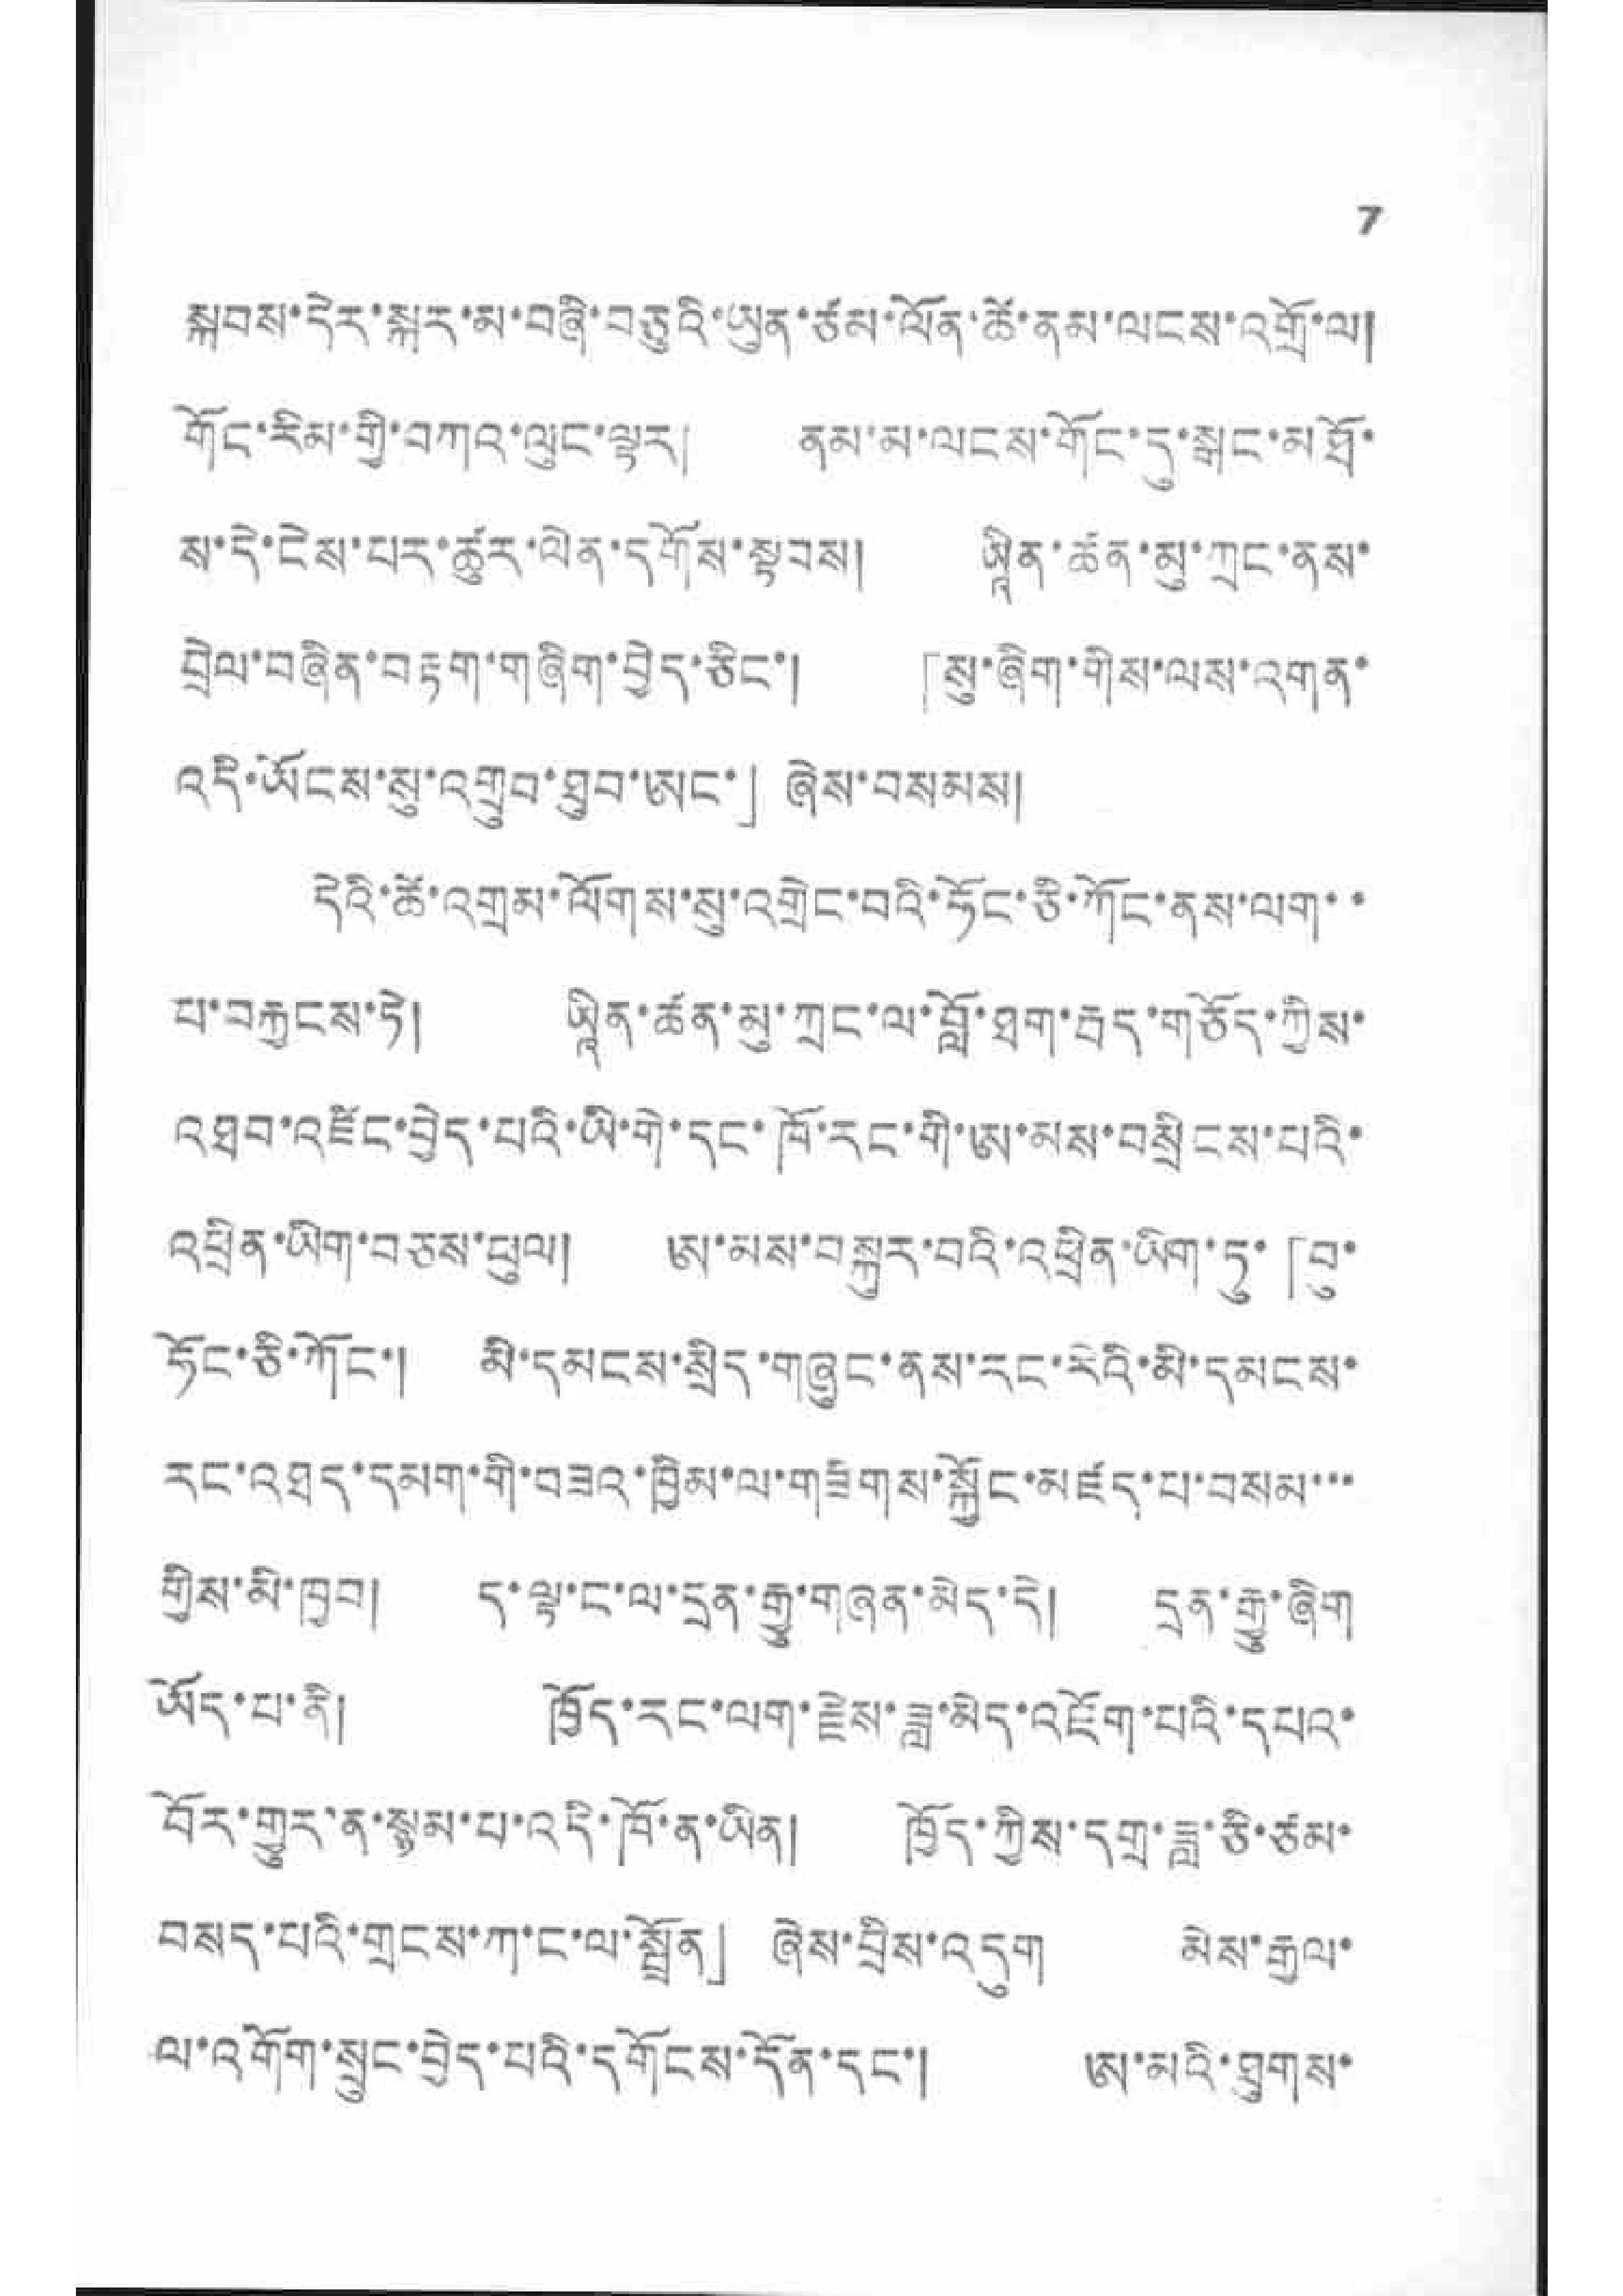7
སྐབས་དེར་སྐར་མ་བཞི་བཅུའི་ཡུན་ཙམ་ལོན་ཚེ་ནམ་ལངས་འགྲོ་ལ།
གོང་རིམ་གྱི་བཀའ་ལུང་ལྟར། ནམ་མ་ལངས་གོང་དུ་སྒང་མཐོ་
ས་དེ་ངེས་པར་ཚུར་ལེན་དགོས་སྟབས། ཡཱིན་ཚན་མུ་གྲང་ནས་
བྲེལ་བཞིན་བརྟག་གཞིག་བྱེད་ཅིང་། 「སུ་ཞིག་གེས་ལས་འགན་
འདི་ཡོངས་སུ་འགྲུབ་ཐུབ་ཨང་」ཞེས་བསམས།
དེའི་ཚེ་འགྲམ་ལོགས་སུ་འགྲེང་བའི་ཧོང་ཅི་ཀོང་ནས་ལག་་
པ་བརྐྱངས་ཏེ། ཡཱིན་ཚན་མུ་ཀྲང་ལ་བློ་ཐག་རྦད་གཅོད་ཀྱིས་
འཐབ་འཛིང་བྱེད་པའི་ཡི་གེ་དང་ཁོ་རང་གི་ཨ་མས་བསྲིངས་པའི་
འཕྲིན་ཡིག་བཅས་ཕུལ། ཨ་མས་བསྐུར་བའི་འཕྲིན་མིག་ཏུ་「བུ་
ཧོང་ཅི་ཀོང་། མི་དམངས་སྲིད་གཞུང་ནས་རང་རེའི་མི་དམངས་
རང་འཐད་དམག་གི་བཟའ་ཁྱིམ་ལ་གཟིགས་སྐྱོང་མཛད་པ་བསམ་་་
གྱིས་མི་ཁྱབ། ད་ལྟ་ང་ལ་དྲན་རྒྱུ་གཞན་མེད་དེ། དྲན་རྒྱུ་ཞིག
ཡོད་པ་ནི། ཁྱོད་རང་ལག་རྗེས་ཟླ་མེར་འཇོག་པའི་དཔའ་
བོར་གྱུར་ན་སྙམ་པ་འདི་ཁོ་ན་ཡིན། ཁྱོད་ཀྱིས་དགྲ་ཟླ་ཅི་ཅམ་
བསད་པའི་གྲངས་ཀ་ང་ལ་སྦྱོན」 ཞེས་བྲིས་འདུག མེས་རྒྱལ་
ལ་འགོག་སྲུང་བྱེད་པའི་དགོངས་དོན་དང་། ཨ་མའི་ཐུགས་
